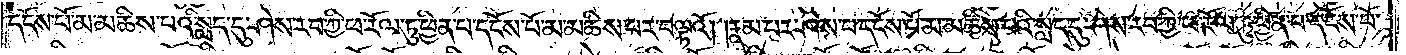དངོས་པོ་མ་མཆིས་པའི་སླད་དུ་ཤེས་རབ་ཀྱི་ཕ་རོལ་ཏུ་ཕྱིན་པ་དངོས་པོ་མ་མཆིས་པར་བལྟའོ། །རྣམ་པར་ཤེས་པ་དངོས་པོ་མ་མཆིས་པའི་སླད་དུ་ཤེས་རབ་ཀྱི་ཕ་རོལ་ཏུ་ཕྱིན་པ་དངོས་པོ་
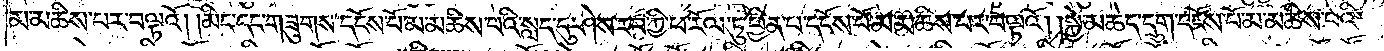མ་མཆིས་པར་བལྟའོ། །མིང་དང་གཟུགས་དངོས་པོ་མ་མཆིས་པའི་སླད་དུ་ཤེས་རབ་ཀྱི་ཕ་རོལ་ཏུ་ཕྱིན་པ་དངོས་པོ་མ་མཆིས་པར་བལྟའོ། །སྐྱེ་མཆེད་དྲུག་དངོས་པོ་མ་མཆིས་པའི་
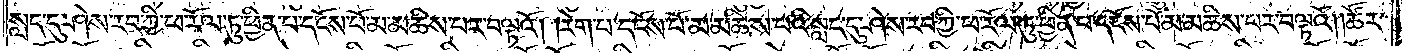སླད་དུ་ཤེས་རབ་ཀྱི་ཕ་རོལ་ཏུ་ཕྱིན་པ་དངོས་པོ་མ་མཆིས་པར་བལྟའོ། །རེག་པ་དངོས་པོ་མ་མཆིས་པའི་སླད་དུ་ཤེས་རབ་ཀྱི་ཕ་རོལ་ཏུ་ཕྱིན་པ་དངོས་པོ་མ་མཆིས་པར་བལྟའོ། །ཚོར་
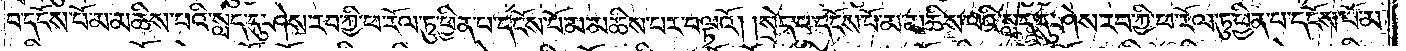བ་དངོས་པོ་མ་མཆིས་པའི་སླད་དུ་ཤེས་རབ་ཀྱི་ཕ་རོལ་ཏུ་ཕྱིན་པ་དངོས་པོ་མ་མཆིས་པར་བལྟའོ། །སྲེད་པ་དངོས་པོ་མ་མཆིས་པའི་སླད་དུ་ཤེས་རབ་ཀྱི་ཕ་རོལ་ཏུ་ཕྱིན་པ་དངོས་པོ་མ་
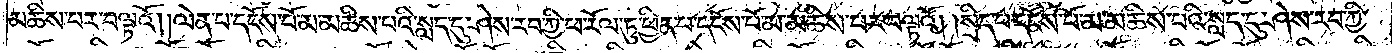མཆིས་པར་བལྟའོ། །ལེན་པ་དངོས་པོ་མ་མཆིས་པའི་སླད་དུ་ཤེས་རབ་ཀྱི་ཕ་རོལ་ཏུ་ཕྱིན་པ་དངོས་པོ་མ་མཆིས་པར་བལྟའོ། །སྲིད་པ་དངོས་པོ་མ་མཆིས་པའི་སླད་དུ་ཤེས་རབ་ཀྱི་
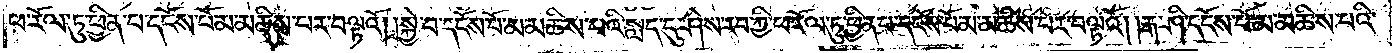ཕ་རོལ་ཏུ་ཕྱིན་པ་དངོས་པོ་མ་མཆིས་པར་བལྟའོ། །སྐྱེ་བ་དངོས་པོ་མ་མཆིས་པའི་སླད་དུ་ཤེས་རབ་ཀྱི་ཕ་རོལ་ཏུ་ཕྱིན་པ་དངོས་པོ་མ་མཆིས་པར་བལྟའོ། །རྒ་ཤི་དངོས་པོ་མ་མཆིས་པའི་
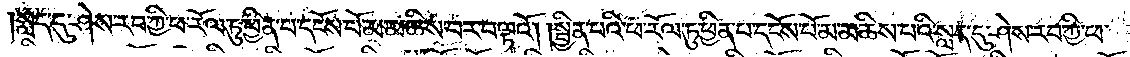སླད་དུ་ཤེས་རབ་ཀྱི་ཕ་རོལ་ཏུ་ཕྱིན་པ་དངོས་པོ་མ་མཆིས་པར་བལྟའོ། །སྦྱིན་པའི་ཕ་རོལ་ཏུ་ཕྱིན་པ་དངོས་པོ་མ་མཆིས་པའི་སླད་དུ་ཤེས་རབ་ཀྱི་ཕ་
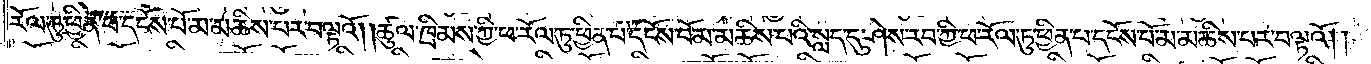རོལ་ཏུ་ཕྱིན་པ་དངོས་པོ་མ་མཆིས་པར་བལྟའོ། །ཚུལ་ཁྲིམས་ཀྱི་ཕ་རོལ་ཏུ་ཕྱིན་པ་དངོས་པོ་མ་མཆིས་པའི་སླད་དུ་ཤེས་རབ་ཀྱི་ཕ་རོལ་ཏུ་ཕྱིན་པ་དངོས་པོ་མ་མཆིས་པར་བལྟའོ། །
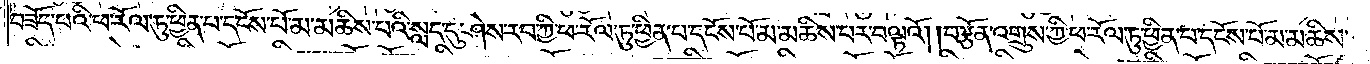བཟོད་པའི་ཕ་རོལ་ཏུ་ཕྱིན་པ་དངོས་པོ་མ་མཆིས་པའི་སླད་དུ་ཤེས་རབ་ཀྱི་ཕ་རོལ་ཏུ་ཕྱིན་པ་དངོས་པོ་མ་མཆིས་པར་བལྟའོ། །བརྩོན་འགྲུས་ཀྱི་ཕ་རོལ་ཏུ་ཕྱིན་པ་དངོས་པོ་མ་མཆིས་
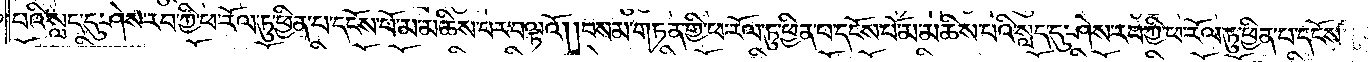པའི་སླད་དུ་ཤེས་རབ་ཀྱི་ཕ་རོལ་ཏུ་ཕྱིན་པ་དངོས་པོ་མ་མཆིས་པར་བལྟའོ། །བསམ་གཏན་གྱི་ཕ་རོལ་ཏུ་ཕྱིན་པ་དངོས་པོ་མ་མཆིས་པའི་སླད་དུ་ཤེས་རབ་ཀྱི་ཕ་རོལ་ཏུ་ཕྱིན་པ་དངོས་
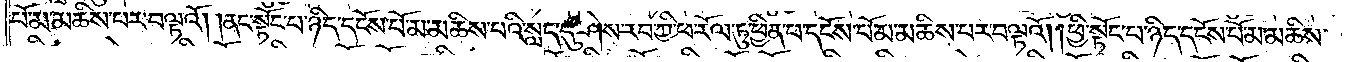པོ་མ་མཆིས་པར་བལྟའོ། །ནང་སྟོང་པ་ཉིད་དངོས་པོ་མ་མཆིས་པའི་སླད་དུ་ཤེས་རབ་ཀྱི་ཕ་རོལ་ཏུ་ཕྱིན་པ་དངོས་པོ་མ་མཆིས་པར་བལྟའོ། །ཕྱི་སྟོང་པ་ཉིད་དངོས་པོ་མ་མཆིས་
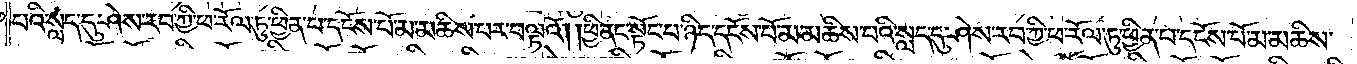པའི་སླད་དུ་ཤེས་རབ་ཀྱི་ཕ་རོལ་ཏུ་ཕྱིན་པ་དངོས་པོ་མ་མཆིས་པར་བལྟའོ། །ཕྱི་ནང་སྟོང་པ་ཉིད་དངོས་པོ་མ་མཆིས་པའི་སླད་དུ་ཤེས་རབ་ཀྱི་ཕ་རོལ་ཏུ་ཕྱིན་པ་དངོས་པོ་མ་མཆིས་
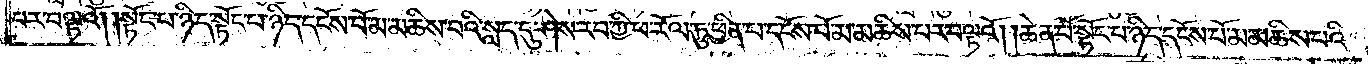པར་བལྟའོ། །སྟོང་པ་ཉིད་སྟོང་པ་ཉིད་དངོས་པོ་མ་མཆིས་པའི་སླད་དུ་ཤེས་རབ་ཀྱི་ཕ་རོལ་ཏུ་ཕྱིན་པ་དངོས་པོ་མ་མཆིས་པར་བལྟའོ། །ཆེན་པོ་སྟོང་པ་ཉིད་དངོས་པོ་མ་མཆིས་པའི་
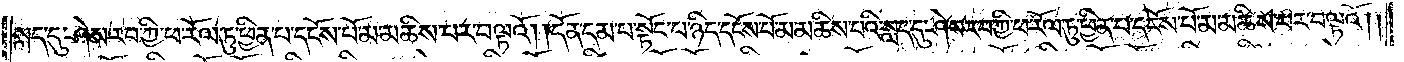སླད་དུ་ཤེས་རབ་ཀྱི་ཕ་རོལ་ཏུ་ཕྱིན་པ་དངོས་པོ་མ་མཆིས་པར་བལྟའོ། །དོན་དམ་པ་སྟོང་པ་ཉིད་དངོས་པོ་མ་མཆིས་པའི་སླད་དུ་ཤེས་རབ་ཀྱི་ཕ་རོལ་ཏུ་ཕྱིན་པ་དངོས་པོ་མ་མཆིས་པར་བལྟའོ། །
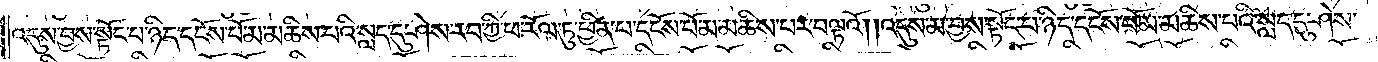འདུས་བྱས་སྟོང་པ་ཉིད་དངོས་པོ་མ་མཆིས་པའི་སླད་དུ་ཤེས་རབ་ཀྱི་ཕ་རོལ་ཏུ་ཕྱིན་པ་དངོས་པོ་མ་མཆིས་པར་བལྟའོ། །འདུས་མ་བྱས་སྟོང་པ་ཉིད་དངོས་པོ་མ་མཆིས་པའི་སླད་དུ་ཤེས་
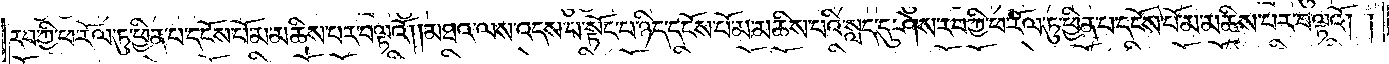རབ་ཀྱི་ཕ་རོལ་ཏུ་ཕྱིན་པ་དངོས་པོ་མ་མཆིས་པར་བལྟའོ། །མཐའ་ལས་འདས་པ་སྟོང་པ་ཉིད་དངོས་པོ་མ་མཆིས་པའི་སླད་དུ་ཤེས་རབ་ཀྱི་ཕ་རོལ་ཏུ་ཕྱིན་པ་དངོས་པོ་མ་མཆིས་པར་བལྟའོ༎
